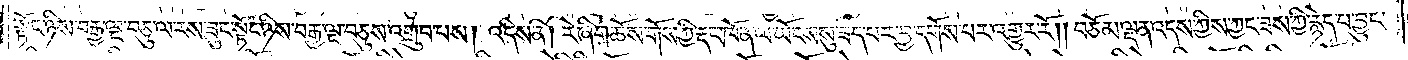སྟོང་ཉིས་བརྒྱ་ལྔ་བཅུ་ལ་རས་ཟུང་སྟོང་ཉིས་བརྒྱ་ལྔ་བཅུས་འགྲུབ་པས། འདིས་ནི། རེ་ཞིག་ཆོས་གོས་ཀྱི་རྡང་ཁོ་ན་ལ་ཡོངས་སུ་ཟད་པར་བྱ་དགོས་པར་འགྱུར་རོ། །བཅོམ་ལྡན་འདས་ཀྱིས་ཀྱང་ཟས་ཀྱི་རྙེད་པ་བྱུང་
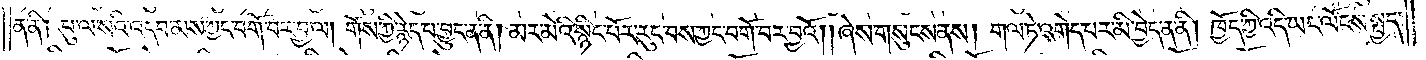ན་ནི། པུ་ལ་སའི་འདབ་མས་ཀྱང་བགོ་བར་བྱ་ལ། གོས་ཀྱི་རྙེད་པ་བྱུང་ན་ནི། མར་མེའི་སྙིང་པོར་རུང་བས་ཀྱང་བགོ་བར་བྱའོ། །ཞེས་གསུངས་ནས། གལ་ཏེ་འགེད་པར་མི་བྱེད་ན་ནི། ཁྱོད་ཀྱི་འདི་ཡང་ལོངས་སྤྱད་
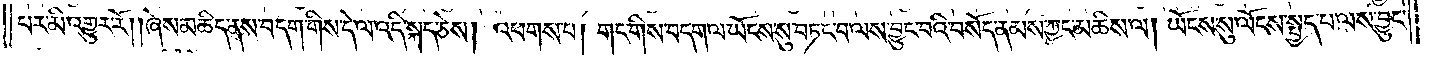པར་མི་འགྱུར་རོ། །ཞེས་མཆིད་ནས་བདག་གིས་དེ་ལ་འདི་སྐད་ཅེས། འཕགས་པ། གང་གིས་བདག་ལ་ཡོངས་སུ་བཏང་བ་ལས་བྱུང་བའི་བསོད་ནམས་ཀྱང་མཆིས་ལ། ཡོངས་སུ་ལོངས་སྤྱད་པ་ལས་བྱུང་
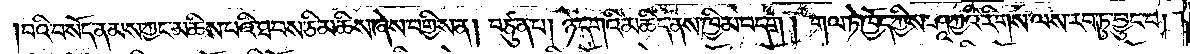བའི་བསོད་ནམས་ཀྱང་མཆིས་པའི་ཐབས་ཅི་མཆིས་ཞེས་བགྱིས་ན། བཙུན་པ། ཉེ་དགའི་མཆིད་ནས་ཁྱིམ་བདག །གལ་ཏེ་ཁྱོད་ཀྱིས་ཤཱཀྱའི་རིགས་ལས་རབ་ཏུ་བྱུང་བ།
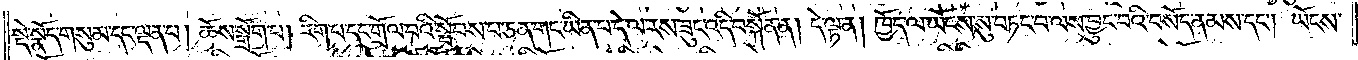སྡེ་སྣོད་གསུམ་དང་ལྡན་པ། ཆོས་སྒྲོག་པ། རིག་པ་དང་གྲོལ་བའི་སྤོབས་པ་ཅན་གང་ཡིན་པ་དེ་ལ་རས་ཟུང་འདི་བསྐོན་ན། དེ་ལྟ་ན། ཁྱོད་ལ་ཡོངས་སུ་བཏང་བ་ལས་བྱུང་བའི་བསོད་ནམས་དང༌། ཡོངས་
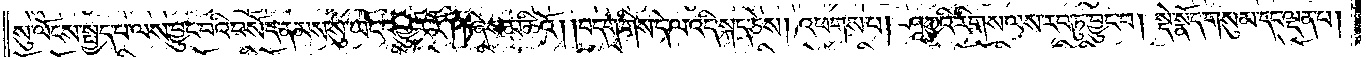སུ་ལོངས་སྤྱད་པ་ལས་བྱུང་བའི་བསོད་ནམས་སུ་ཡང་འགྱུར་རོ། །ཞེས་མཆིའོ། །བདག་གིས་དེ་ལ་འདི་སྐད་ཅེས། འཕགས་པ། ཤཱཀྱའི་རིགས་ལས་རབ་ཏུ་བྱུང་བ། སྡེ་སྣོད་གསུམ་དང་ལྡན་པ།
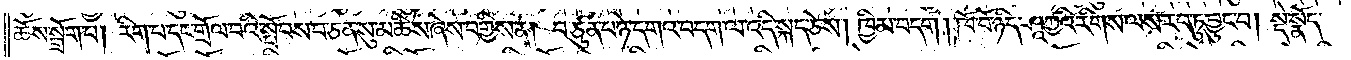ཆོས་སྒྲོག་པ། རིག་པ་དང་གྲོལ་བའི་སྤོབས་པ་ཅན་སུ་མཆིས་ཞེས་བགྱིས་ན། བཙུན་པ་ཉེ་དགའ་བདག་ལ་འདི་སྐད་ཅེས། ཁྱིམ་བདག །ཁོ་བོ་ཉིད་ཤཱཀྱའི་རིགས་ལས་རབ་ཏུ་བྱུང་བ། སྡེ་སྣོད་
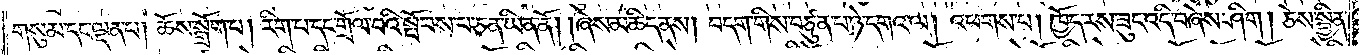གསུམ་དང་ལྡན་པ། ཆོས་སྒྲོག་པ། རིག་པ་དང་གྲོལ་བའི་སྤོབས་པ་ཅན་ཡིན་ནོ། །ཞེས་མཆིད་ནས། བདག་གིས་བཙུན་པ་ཉེ་དགའ་ལ། འཕགས་པ། ཁྱོད་རས་ཟུང་འདི་བཞེས་ཤིག །ཅེས་སྦྱིན་
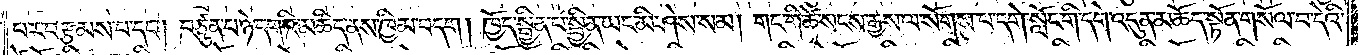པར་བརྩམས་པ་དང༌། བཙུན་པ་ཉེ་དགའི་མཆིད་ནས་ཁྱིམ་བདག། ཁྱོད་སྦྱིན་པ་སྦྱིན་ཡང་མི་ཤེས་སམ། གང་གི་ཚེ་སངས་རྒྱས་ལ་སོགས་པ་དགེ་སློང་གི་དགེ་འདུན་མཆོད་སྟོན་གསོལ་བ་དེའི་
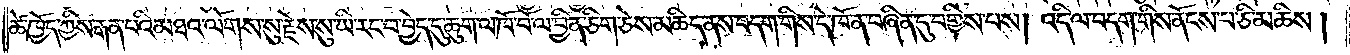ཚེ་ཁྱོད་ཀྱིས་རྒན་པའི་མཐའ་ལོགས་སུ་རྗེས་སུ་ཡི་རང་བ་བྱེད་དུ་ཆུག་ལ་ཁོ་བོ་ལ་བྱིན་ཅིག་ཅེས་མཆིད་ནས་བདག་གིས་དེ་ཁོ་ན་བཞིན་དུ་བགྱིས་པས། འདི་ལ་བདག་གིས་ནོངས་པ་ཅི་མཆིས།
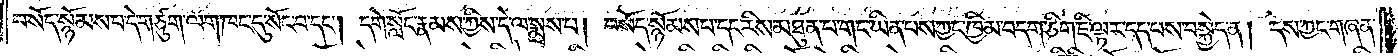བསོད་སྙོམས་པ་དེ་གཙུག་ལག་ཁང་དུ་སོང་བ་དང༌། དགེ་སློང་རྣམས་ཀྱིས་དེ་ལ་སྨྲས་པ། བསོད་སྙོམས་པ་དང་རིས་མཐུན་པ་གང་ཡིན་པས་ཀྱང་ཁྱིམ་བདག་ཅིག་ཇི་ལྟར་དད་པས་བསྐྱེད་ན། དེས་ཀྱང་གཞན་
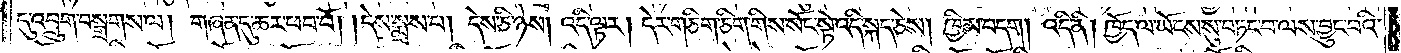དུ་འབྲུག་བསྒྲགས་ལ། གཞན་དུ་ཆར་ཕབ་བོ། །དེས་སྨྲས་པ། དེས་ཅི་ཉེས། འདི་ལྟར། དེར་གཅིག་ཅིག་གིས་སོང་སྟེ་འདི་སྐད་ཅེས། ཁྱིམ་བདག། འདི་ནི། ཁྱོད་ལ་ཡོངས་སུ་བཏང་བ་ལས་བྱུང་བའི་
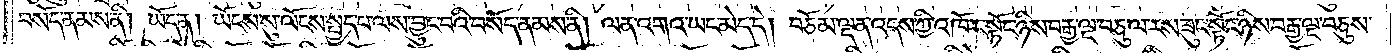བསོད་ནམས་ནི། ཡོད་ན། ཡོངས་སུ་ལོངས་སྤྱད་པ་ལས་བྱུང་བའི་བསོད་ནམས་ནི། ལན་འགའ་ཡང་མེད་དེ། བཅོམ་ལྡན་འདས་ཀྱི་འཁོར་སྟོང་ཉིས་བརྒྱ་ལྔ་བཅུ་ལ་རས་ཟུང་སྟོང་ཉིས་བརྒྱ་ལྔ་བཅུས་
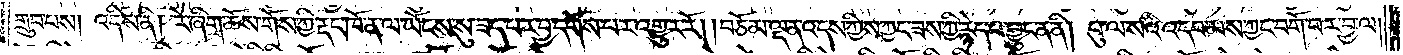གྲུབ་པས། འདིས་ནི། རེ་ཞིག་ཆོས་གོས་ཀྱི་རྡང་ཁོ་ན་ལ་ཡོངས་སུ་ཟད་པར་བྱ་དགོས་པར་འགྱུར་རོ། །བཅོམ་ལྡན་འདས་ཀྱིས་ཀྱང་ཟས་ཀྱི་རྙེད་པ་བྱུང་ན་ནི། པུ་ལ་སའི་འདབ་མས་ཀྱང་བགོ་བར་བྱ་ལ།
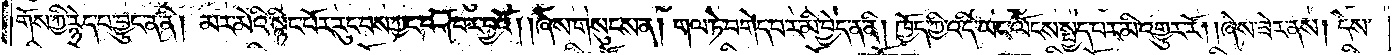གོས་ཀྱི་རྙེད་པ་བྱུང་ན་ནི། མར་མེའི་སྙིང་པོར་རུང་བས་ཀྱང་བགོ་བར་བྱའོ། །ཞེས་གསུངས་ན། གལ་ཏེ་བགེད་པར་མི་བྱེད་ན་ནི། ཁྱོད་ཀྱི་འདི་ཡང་ལོངས་སྤྱད་པར་མི་འགྱུར་རོ། །ཞེས་ཟེར་ནས། དེས་
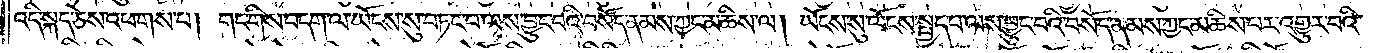འདི་སྐད་ཅེས་འཕགས་པ། གང་གིས་བདག་ལ་ཡོངས་སུ་བཏང་བ་ལས་བྱུང་བའི་བསོད་ནམས་ཀྱང་མཆིས་ལ། ཡོངས་སུ་ལོངས་སྤྱད་པ་ལས་བྱུང་བའི་བསོད་ནམས་ཀྱང་མཆིས་པར་འགྱུར་བའི་
